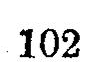102
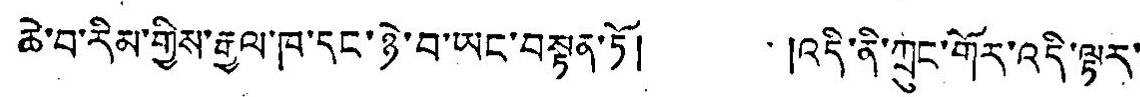ཆེ་བ་རིམ་གྱིས་རྒྱལ་ཁ་དང་ཉེ་བ་ཡང་བསྟན་ཏོ། །འདི་ནི་ཀྲུང་གོར་འདི་ལྟར་
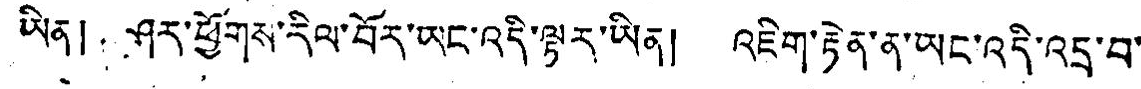ཡིན། ཤར་ཕྱོགས་རིལ་བོར་ཡང་འདི་ལྟར་ཡིན། འཇིག་རྟེན་ན་ཡང་འདི་འདྲ་བ་
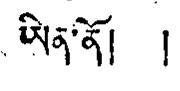ཡིན་ནོ། །
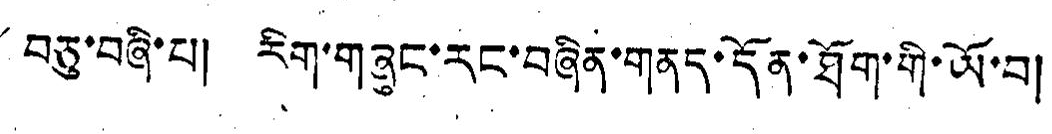བཅུ་བཞི་པ། རིག་གཞུང་རང་བཞིན་གནད་དོན་ཐོག་གི་ཡོ་བ།
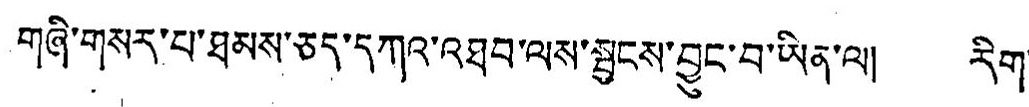གཞི་གསར་པ་ཐམས་ཅད་དཀའ་འཐབ་ལས་སྦྱངས་བྱུང་བ་ཡིན་ལ། རིག་
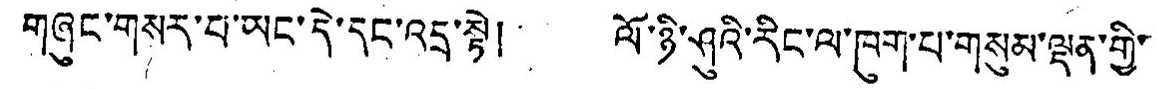གཞུང་གསར་པ་ཡང་དེ་དང་འདྲ་སྟེ། ལོ་ཉི་ཤུའི་རིང་ལ་ཁག་པ་གསུམ་ལྡན་གྱི་
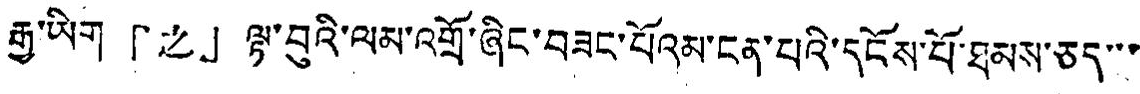རྒྱ་ཡིག 「之」 ལྟ་བུའི་ལམ་འགྲོ་ཞིང་བཟང་པོའམ་ངན་པའི་དངོས་པོ་ཐམས་ཅད་་་
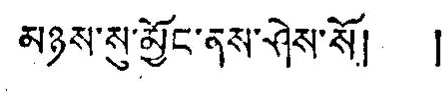མཉས་སུ་མྱོང་ནས་ཤེས་སོ། །
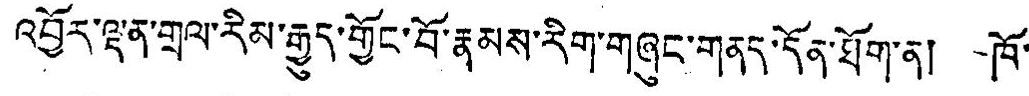འབྱོར་ལྡན་གྲལ་རིམ་རྒྱུད་གྱོང་བོ་རྣམས་རིག་གཞུང་གནད་དོན་ཐོག་ན། ཁོ་
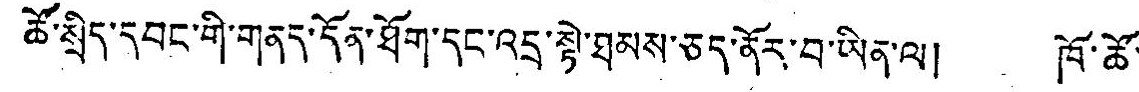ཚོ་སྲིད་དབང་གི་གནད་དོན་ཐོག་དང་འདྲ་སྟེ་ཐམས་ཅད་ནོར་བ་ཡིན་ལ། ཁོ་ཚོ་
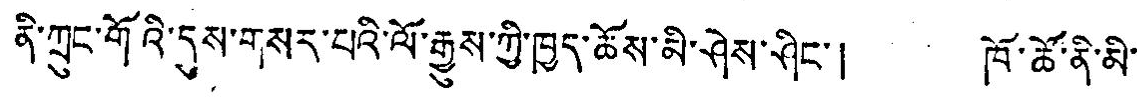ནི་ཀྲུང་གོའི་དུས་གསར་པའི་ལོ་རྒྱུས་ཀྱི་ཁྱད་ཆོས་མི་ཤེས་ཤིང་། ཁོ་ཚོ་ནི་མི་
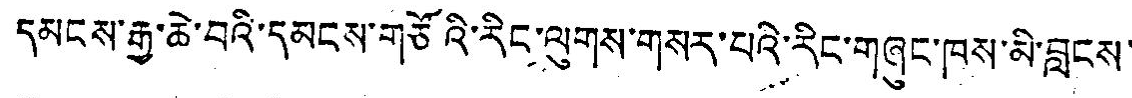དམངས་རྒྱ་ཆེ་བའི་དམངས་གཙོའི་རིང་ལུགས་གསར་པའི་རིང་གཞུང་ཁས་མི་བླངས་
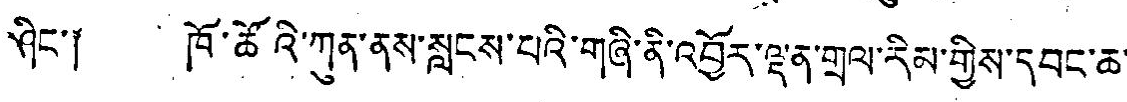ཤིང་། ཁོ་ཚོའི་ཀུན་ནས་སླངས་པའི་གཞི་ནི་འབྱོར་ལྡན་གྲལ་རིམ་གྱིས་དབང་ཆ་
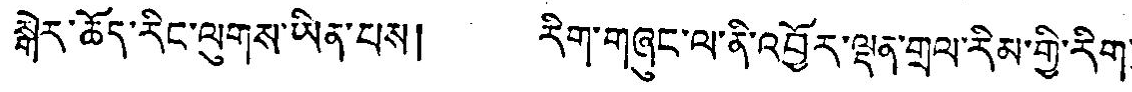སྒེར་ཆོད་རིང་ལུགས་ཡིན་པས། རིག་གཞུང་ལ་ནི་འབྱོར་ལྡན་གྲལ་རིམ་གྱི་རིག་
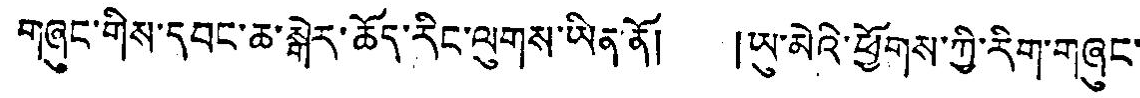གཞུང་གིས་དབང་ཆ་སྒེར་ཆོད་རིང་ལུགས་ཡིན་ནོ། །ཡུ་མེའི་ཕྱོགས་ཀྱི་རིག་གཞུང་
